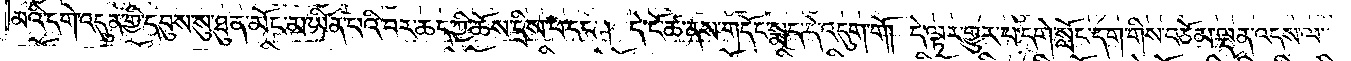མའི་དགེ་འདུན་གྱི་དབུས་སུ་ཐུན་མོང་མ་ཡིན་པའི་བར་ཆད་ཀྱི་ཆོས་དྲིས་པ་དང༌། དེ་ངོ་ཚ་ནས་གདོང་སྨད་དེ་འདུག་གོ། །དེ་ལྟར་གྱུར་པ་དགེ་སློང་དག་གིས་བཅོམ་ལྡན་འདས་ལ་
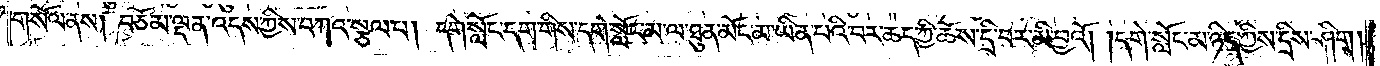གསོལ་ནས། བཅོམ་ལྡན་འདས་ཀྱིས་བཀའ་སྩལ་པ། དགེ་སློང་དག་གིས་དགེ་སློང་མ་ལ་ཐུན་མོང་མ་ཡིན་པའི་བར་ཆད་ཀྱི་ཆོས་དྲི་བར་མི་བྱའོ། །དགེ་སློང་མ་ཉིད་ཀྱིས་དྲིས་ཤིག །
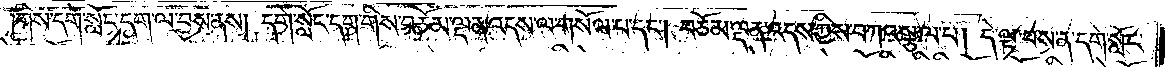གིས་དགེ་སློང་དག་ལ་བྱས་ནས། དགེ་སློང་དག་གིས་བཅོམ་ལྡན་འདས་ལ་གསོལ་པ་དང༌། བཅོམ་ལྡན་འདས་ཀྱིས་བཀའ་སྩལ་པ། དེ་ལྟ་བས་ན་དགེ་སློང་
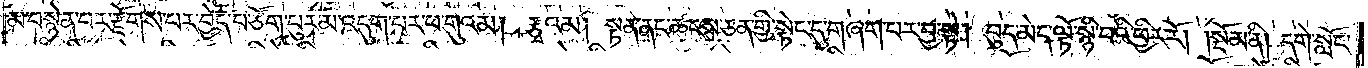མ་བསྙེན་པར་རྫོགས་པར་བྱེད་པ་ཙོག་ཕུར་མ་འདུག་པར་ཕ་གུའམ། རྩྭའམ། སྟན་ནང་ཚངས་ཅན་གྱི་སྟེང་དུ་གཞག་པར་བྱ་སྟེ། བུད་མེད་ལྟོ་སྙི་བའི་ཕྱིར་རོ།    །སྡོམ་ནི། དགེ་སློང་
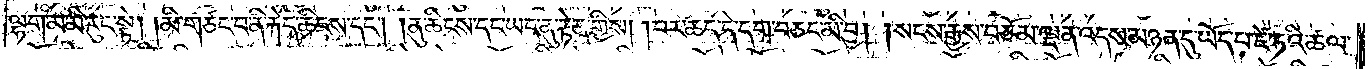ལྷག་མ་མི་རུང་སྟེ། མི་གཙང་བ་ནི་རྐེད་ཆིངས་དང༌། ནུ་ཆིངས་དང་ཡང་ནུ་རྟེན་གྱིས། །བར་ཆད་དེ་དག་བཅང་མི་བྱ། །སངས་རྒྱས་བཅོམ་ལྡན་འདས་མཉན་དུ་ཡོད་པ་ཛེ་ཏའི་ཚལ་
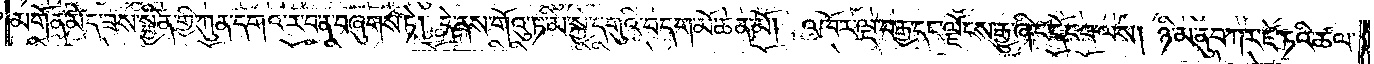མགོན་མེད་ཟས་སྦྱིན་གྱི་ཀུན་དགའ་ར་བ་ན་བཞུགས་ཏེ། དེ་ནས་གོའུ་ཏ་མི་སྐྱེ་དགུའི་བདག་མོ་ཆེན་མོ། །འཁོར་ལྔ་བརྒྱ་དང་ལྗོངས་རྒྱུ་ཞིང་དོང་བ་ལས། ཉི་མ་ནུབ་ཀར་ཛེ་ཏའི་ཚལ་
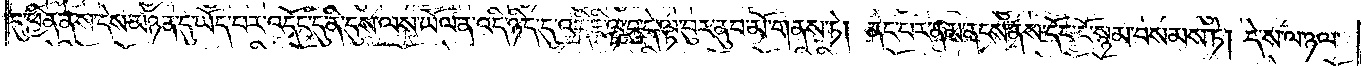དུ་ཕྱིན་ནས་དེས་མཉན་དུ་ཡོད་པར་འདོང་དུ་ནི་དུས་ལས་ཡོལ་ན་འདི་ཉིད་དུ་འདི་ཇི་ལྟ་བུ་དེ་ལྟ་བུར་ནུབ་མོ་གནས་ཏེ། ནང་བར་ནམ་ནངས་ནས་དོང་ངོ་སྙམ་བསམས་ཏེ། དེ་ས་ལ་ཉལ་
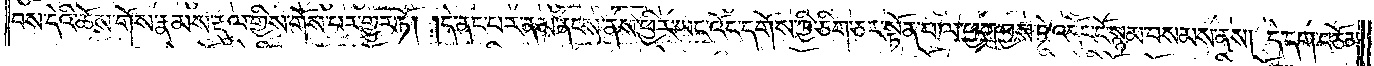བས་དེའི་ཆོས་གོས་རྣམས་རྡུལ་གྱིས་གོས་པར་གྱུར་ཏོ། །དེ་ནང་བར་ནམ་ནངས་ནས་ཕྱིར་ཡང་འོང་དགོས་ཀྱི་ཅིག་ཅར་སྟོན་པ་ལ་ཕྱག་བྱས་ཏེ་འདོང་ངོ་སྙམ་བསམས་ནས། དེ་དག་བཅོམ་
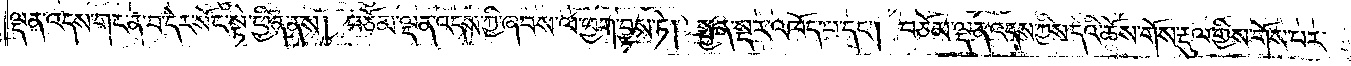ལྡན་འདས་གང་ན་བ་དེར་སོང་སྟེ་ཕྱིན་ནས། བཅོམ་ལྡན་འདས་ཀྱི་ཞབས་ལ་ཕྱག་བྱས་ཏེ། སྤྱན་སྔར་འཁོད་པ་དང༌། བཅོམ་ལྡན་འདས་ཀྱིས་དེའི་ཆོས་གོས་རྡུལ་གྱིས་གོས་པར་
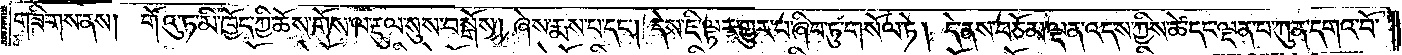གཟིགས་ནས། གོའུ་ཏ་མི་ཁྱོད་ཀྱི་ཆོས་གོས་ལ་རྡུལ་སུས་བསྒོས། ཞེས་རྨས་པ་དང༌། དེས་ཇི་ལྟར་གྱུར་པ་ཞིབ་ཏུ་གསོལ་ཏེ། དེ་ནས་བཅོམ་ལྡན་འདས་ཀྱིས་ཚེ་དང་ལྡན་པ་ཀུན་དགའ་བོ་
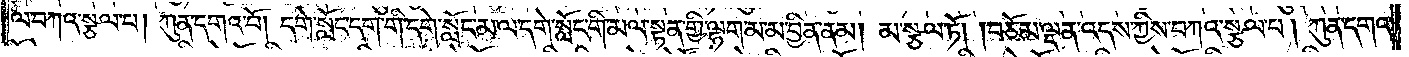ལ་བཀའ་སྩལ་པ། ཀུན་དགའ་བོ། དགེ་སློང་དག་གི་དགེ་སློང་མ་ལ་དགེ་སློང་གི་མལ་སྟན་གྱི་ལྷག་མ་མ་བྱིན་ནམ། མ་སྩལ་ཏོ། །བཅོམ་ལྡན་འདས་ཀྱིས་བཀའ་སྩལ་པ། ཀུན་དགའ་
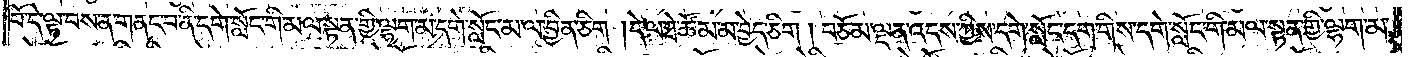བོ་དེ་ལྟ་བས་ན་གནང་བ་ནི་དགེ་སློང་གི་མལ་སྟན་གྱི་ལྷག་མ་དགེ་སློང་མ་ལ་བྱིན་ཅིག །དེ་ལ་ཐེ་ཚོམ་མ་བྱེད་ཅིག །བཅོམ་ལྡན་འདས་ཀྱིས་དགེ་སློང་དག་གིས་དགེ་སློང་གི་མལ་སྟན་གྱི་ལྷག་མ་
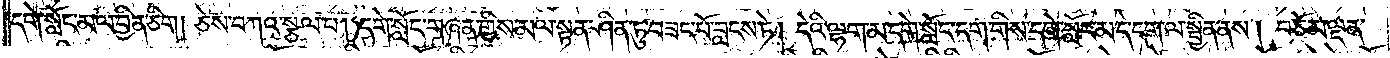དགེ་སློང་མ་ལ་བྱིན་ཅིག །ཅེས་བཀའ་སྩལ་པ། དགེ་སློང་གཞན་གྱིས་མལ་སྟན་ཤིན་ཏུ་བཟང་པོ་བླངས་ཏེ། དེའི་ལྷག་མ་དགེ་སློང་དག་གིས་དགེ་སློང་མ་དེ་དག་ལ་སྦྱིན་ནས། བཅོམ་ལྡན་
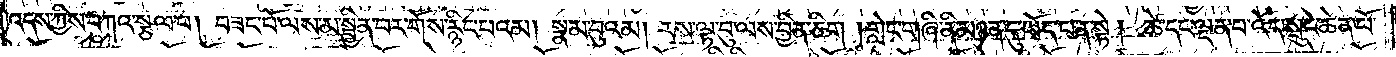འདས་ཀྱིས་བཀའ་སྩལ་པ། བཟང་པོ་ལས་མ་སྦྱིན་པར་གོས་རྙིང་པའམ། སྣམ་བུའམ། རས་ལྟ་བུ་ལས་བྱིན་ཅིག །གླེང་གཞི་ནི་མཉན་དུ་ཡོད་པ་ན་སྟེ། ཚེ་དང་ལྡན་པ་འོད་སྲུང་ཆེན་པོ་
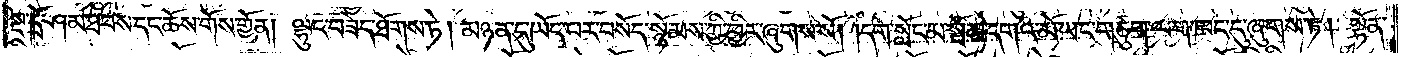སྔ་དྲོ་ཤམ་ཐབས་དང་ཆོས་གོས་གྱོན། ལྷུང་བཟེད་ཐོགས་ཏེ། མཉན་དུ་ཡོད་པར་བསོད་སྙོམས་ཀྱི་ཕྱིར་ཞུགས་སོ། །དགེ་སློང་མ་སྦོམ་དགའ་མོ་ཡང་གཙུག་ལག་ཁང་དུ་ཞུགས་ཏེ། སྟོན་
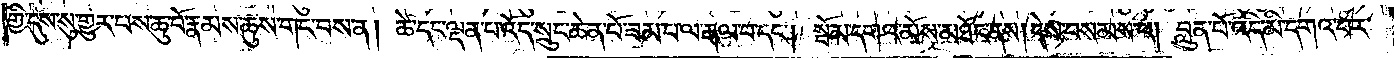གྱི་དུས་སུ་གྱུར་པས་ཆུ་བོ་རྣམས་ཆུས་གང་བས་ན། ཚེ་དང་ལྡན་པ་འོད་སྲུང་ཆེན་པོ་ཟམ་པ་ལ་རྒལ་བ་དང༌། སྦོམ་དགའ་མོས་མཐོང་ནས། དེ་བསམས་པ། བླུན་པོ་འདི་མི་དགའ་བར་
